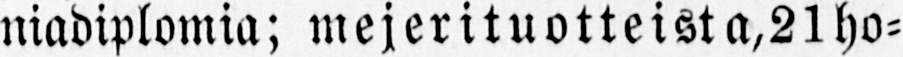niadiplomia; mej erituotteista,21 ho-
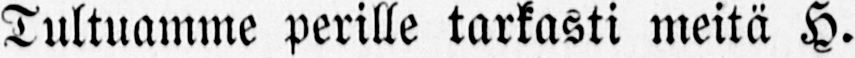Tultuannne perille tarkasti meitä H.
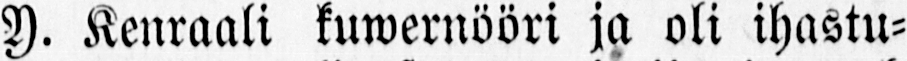Y. Kenraali kuwernööri ja oli ihastu-
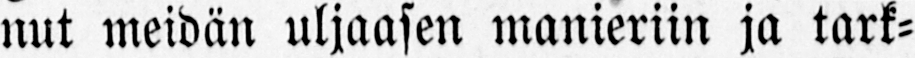nut meidän uljaasen manieriin ja tark-
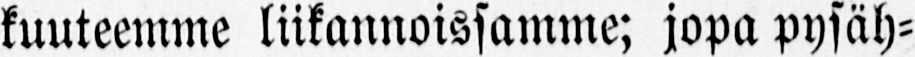kuuteemme lìkannoissamme; jopa pysäh-
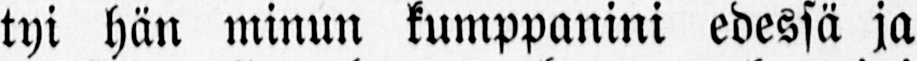tyi hän minun kumppanini edessä ja
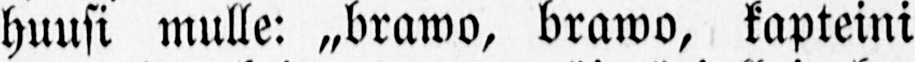huusi mulle: „brawo, brawo, kapteini
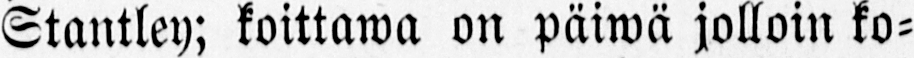Stantley; koittawa on päiwä jolloin ko-
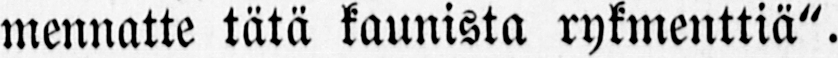mennatte tätä kaunista rykmenttiä".
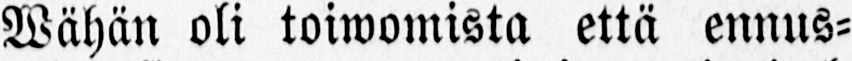Wähän oli toiwomista että ennus-
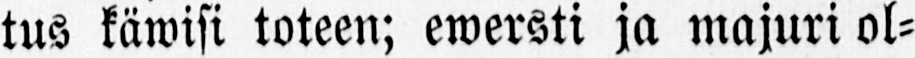tus käwisi toteen; ewersti ja majuri ol-
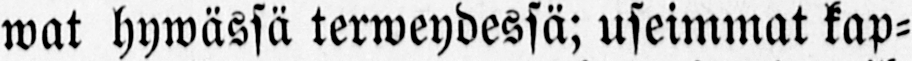wat hywässä terweydessä; useimmat kap-
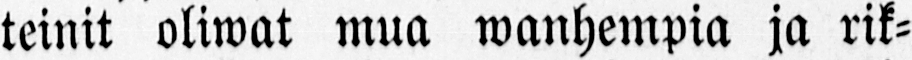teinit oliwat mua wanhempia ja rik-
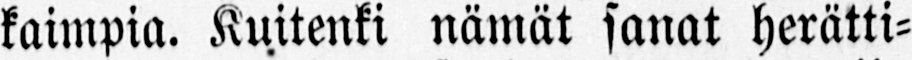kaimpia. Kuitenki nämät sanat herätti-
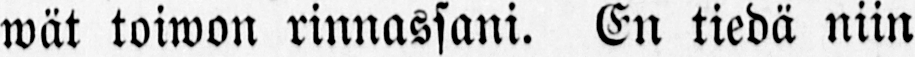wät toiwon rinnassani. En tiedä niin
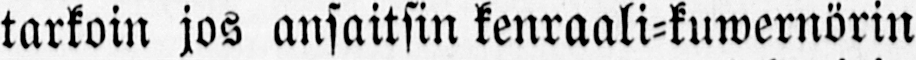tarkoin jos ansaitsin kenraali-kuwernörin
